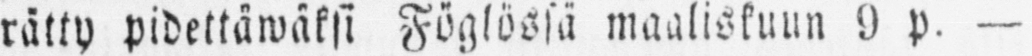rätty pidettäwäksi Föglössä maaliskuun 9 p. —
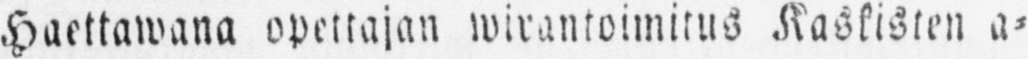Haettawana opettajan wirantoimitus Kaskisten a-
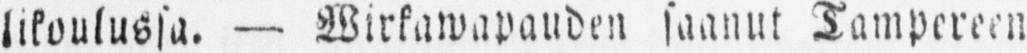likoulussa. — Wirkawapauden saanut Tampereen
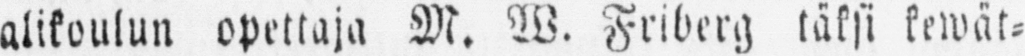alikoulun opettaja M. W. Friberg täksi kewät-
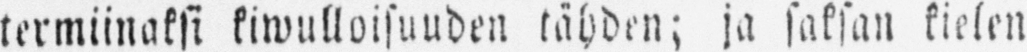termiinaksi kiwulloisuuden tähden; ja saksan kielen
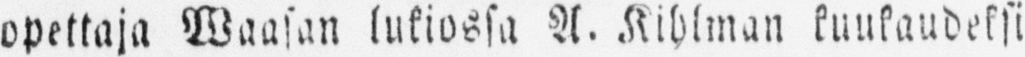opettaja Waasan lukiossa A. Kihlman kuukaudeksi
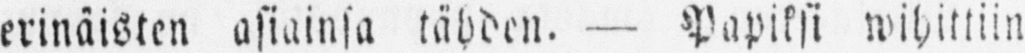erinäisten asiainsa lähden. — Papiksi wihittiin
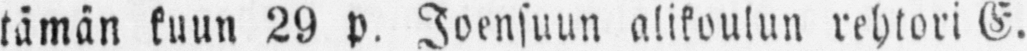tämän kuun 29 p. Joensuun alikoulun rehtori E.
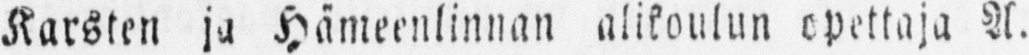Karsten ja Hämeenlinnan alikoulun opettaja A.
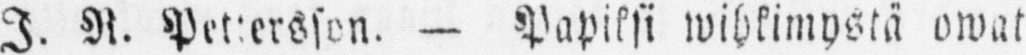I. R. Pettersson. — Papiksi wihkimystä owat
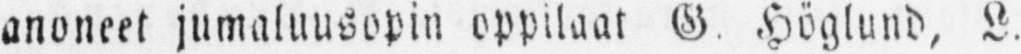anoneet jumaluusopin oppilaat G. Höglund, L.
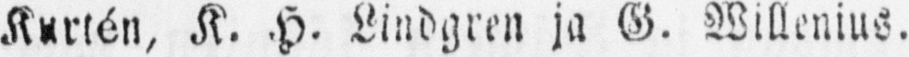Kurtén, K. H. Lindgren ja G. Willenius.
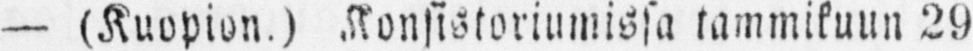— (Kuopion.) Konsistoriumissa tammikuun 29
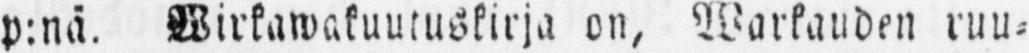p:nä. Wirkawakuutuskirja on, Warkauden ruu-
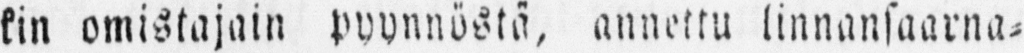kin omistajain pyynnöstä, annettu linnansaarna-
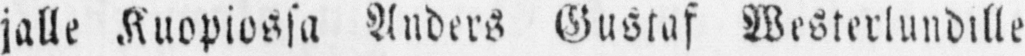jalle Kuopiossa Anders Gustaf Westerlundille
